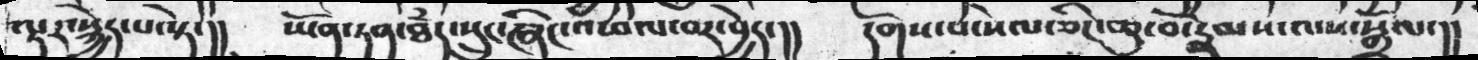ལྟར་སྐྱེད་པ་སྟེ་།།   ཡོན་ཏན་ཐཾད་སྲུང་ཞིང་འཕལ་བར་བྱེད་།།  དགོས་པ་སེལ་ཅིང་ཆུ་བོ་རྣམས་ལས་སྒྲོལ་།།
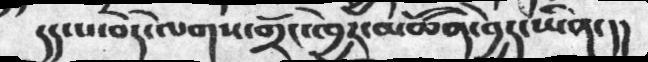དད་པ་བདེ་ལེགས་གྲོང་ཁྱེར་མཚོན་བྱེད་ཡིན་།།
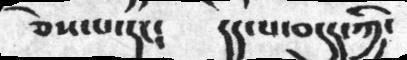ཅེས་པ་དང༴  དད་པ་བདུད་ཀྱི་
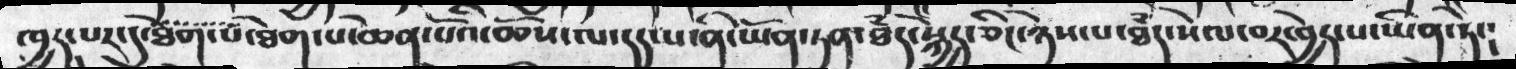ཁྱད་པར་དུ་ཐེག་པ་ཐེག་པ་ཆེན་པོའི་ཆོས་ལ་དད་པ་ནི་ཡོན་ཏན་ཐཾད་སྐྱེད་ཅིང་ཉེས་པ་ཐཾད་སེལ་བར་བྱེད་པ་ཡིན་ཏེ་༴
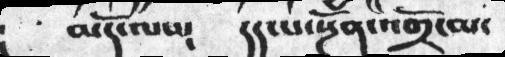མདོ་ལས༴  དད་པ་སྔོན་འགྲོ་ལ་
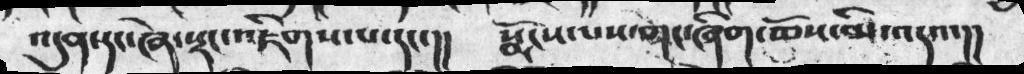འདུན་དང་ཞེ་སྡང་འཇིགས་པ་དང་།།  སྨོངས་པས་གང་ཞིག་ཆོས་མི་འདའ་།
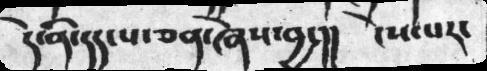དེ་ནི་དད་པ་ཅན་ཞེས་བྱ་།།  ངེས་པར་
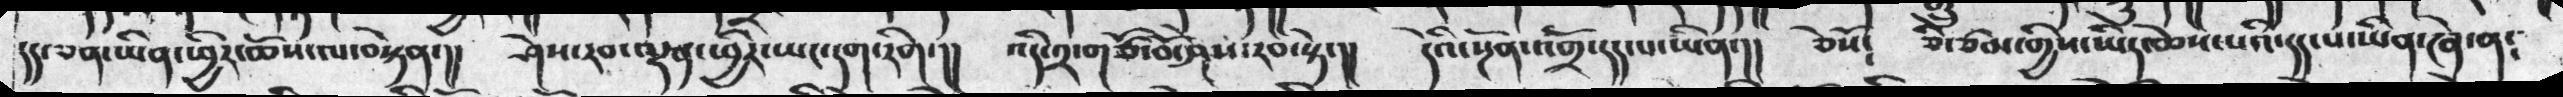དད་ཅན་ཡིན་ཕྱིར་ཆོས་ལ་བསྟེན་།།  ཤེས་རབ་ལྡན་ཕྱིར་ཡང་དག་རིག་།།  འདི་༢་གཙོ་བོ་ཤེས་རབ་སྟེ་།།  དེའི་སྔོན་འགྲོ་དད་པ་ཡིན་།།   ཅེསོ༴  ཅི་ཙམ་གྱིས་ཡིད་ཆེས་པའི་དད་པ་ཡིན་ཞེ་ན༴
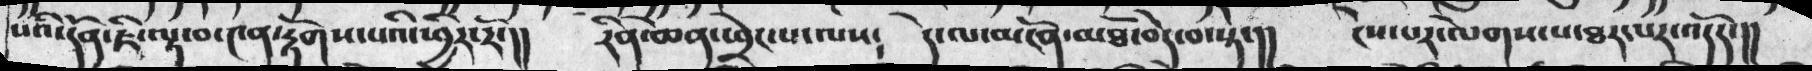པའི་དོན་ཇི་ལྟ་བ་༤ན་རྟོགས་པའི་ཕྱིར་རོ་།།   རིན་ཆེན་ཕྲེང་པ་ལས༴   དེ་ལ་མངོན་མཐོ་བདེ་བ་སྟེ་།།  ངེས་པར་ལེགས་པ་ཐར་པར་འདོད་།།
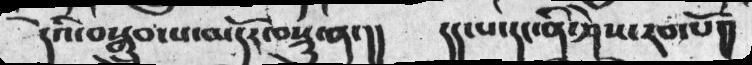དེའ་བསྒྲུབ་པ་མདོར་བསྡུ་ན་།།   དད་པ་དང་ནི་ཤེས་རབ་པོ།།
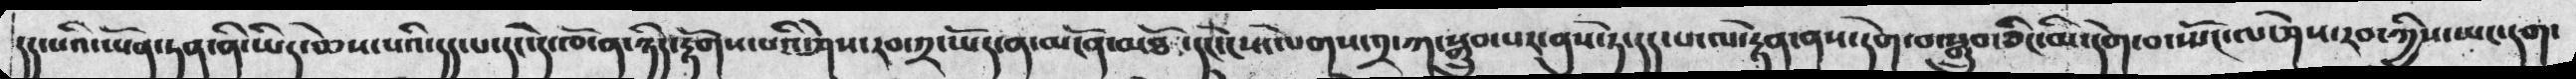དད་པའི་ཡོན་ཏན་ནི་ཡིད་ཆེས་པའི་དད་པ་དང་དེ་ཁོ་ན་ཉིད་རྟོགས་པའི་ཤེས་རབ་༢་ཡོད་ན་མངོན་མཐོ་དང་ངེས་ལེགས་༢་ཀ་སྒྲུབ་པར་ནུས་ཏེ་དད་པ་ལ་རྟེན་ནས་དགེ་བ་སྒྲུབ་ཅིང་མི་དགེ་བ་ཡོང་ལ་ཤེས་རབ་ཀྱིས་ཡང་དག་
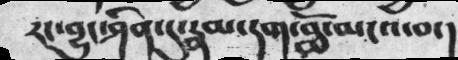རང་བྱུང་ཤིན་དུ་རྣམ་དག་བློ་མངའ་བ་།
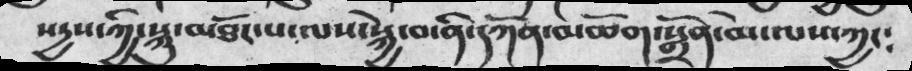སདྱས་ཀྱི་སྐུ་མཐོང་པ་ལས་སྐྱེ་བ་ནི་དཀོན་མཆོག་སྒྲོན་མེ་ལས་ཀྱང༴
